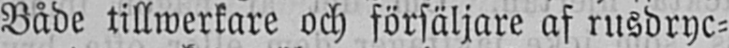Både tillwerkare och försäljare af rusdryc-
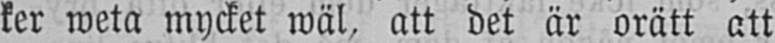ker weta mycket wäl, att det är orätt att
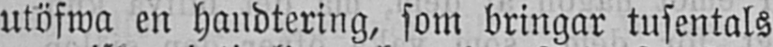utöfwa en handtering, som bringar tusentals
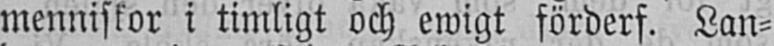menniskor i timligt och ewigt förderf. Lan-
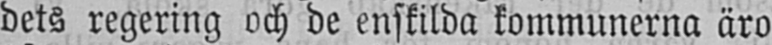dets regering och de enskilda kommunerna äro
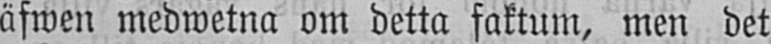äfwen medwetna om detta faktum, men det
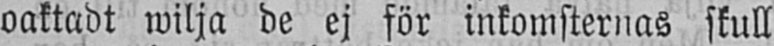oaktadt wilja de ej för inkomsternas skull
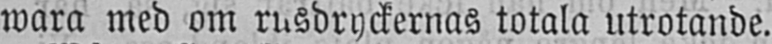wara med om rusdryckernas totala utrotande.
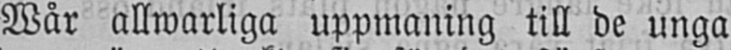Wår allwarliga uppmaning till de unga
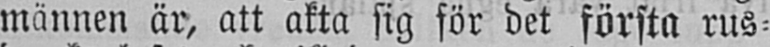männen är, att akta sig för det första rus-
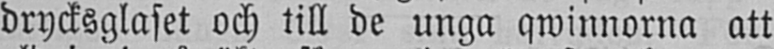drycksglaset och till de unga qwinnorna att
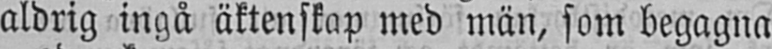aldrig ingå äktenskap med män, som begagna
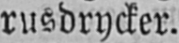rusdrycker.
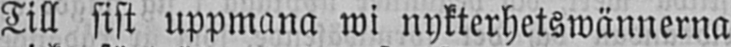Till sist uppmana wi nykterhetswännerna
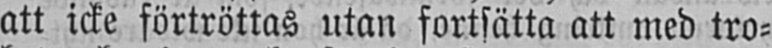att icke förtröttas utan fortsätta att med tro-
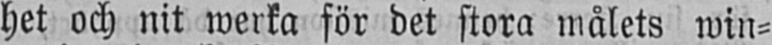het och nit werka för det stora målets win-
